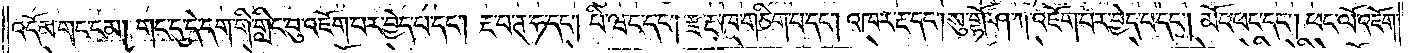འདོམ་གང་ངམ། གང་དུ་དེ་དག་གི་གླིང་བུ་འཇོག་པར་བྱེད་པ་དང༌། རྔ་པ་ཊ་ཧ་དང༌། པི་ཝང་དང༌། རྫ་རྔ་ཁ་གཅིག་པ་དང༌། འཁར་རྔ་དང༌། སུ་གྷོ་ཤ་ཀ་འཇོག་པར་བྱེད་པ་དང༌། མོང་ཕང་དང༌། ཕང་ལོ་འཇོག་
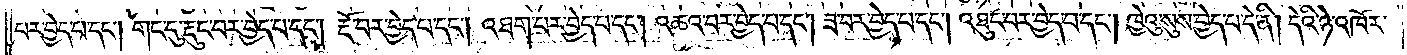པར་བྱེད་པ་དང༌། གང་དུ་རྡུང་བར་བྱེད་པ་དང༌། རྔོ་བར་བྱེད་པ་དང༌། འཐག་པར་བྱེད་པ་དང༌། འཆའ་བར་བྱེད་པ་དང༌། ཟ་བར་བྱེད་པ་དང༌། འཐུང་བར་བྱེད་པ་དང༌། ཁྱེའུ་སུས་བྱེད་པ་དེ་ནི། དེའི་ཉེ་འཁོར་
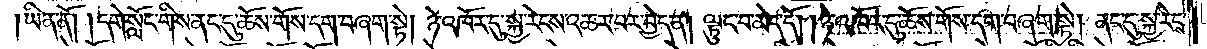ཡིན་ནོ། །དགེ་སློང་གིས་ནང་དུ་ཆོས་གོས་དག་བཞག་སྟེ། ཉེ་འཁོར་དུ་སྐྱ་རེངས་འཆར་བར་བྱེད་ན། ལྟུང་བ་མེད་དོ། །ཉེ་འཁོར་དུ་ཆོས་གོས་དག་བཞག་སྟེ། ནང་དུ་སྐྱ་རེངས་
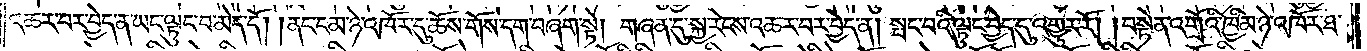འཆར་བར་བྱེད་ན་ཡང་ལྟུང་བ་མེད་དོ། །ནང་ངམ་ཉེ་འཁོར་དུ་ཆོས་གོས་དག་བཞག་སྟེ། གཞན་དུ་སྐྱ་རེངས་འཆར་བར་བྱེད་ན། སྤང་བའི་ལྟུང་བྱེད་དུ་འགྱུར་རོ། །བསྟེན་འགྲོའི་ཁྱིམ་ཉེ་འཁོར་ཐ་
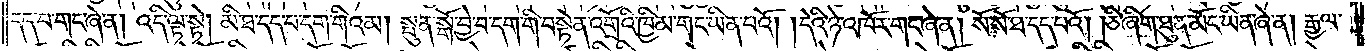དད་པ་གང་ཞེ་ན། འདི་ལྟ་སྟེ། མི་ཐ་དད་པ་དག་གིའམ། སྤུན་སྒོ་བྱེ་བ་དག་གི་བསྟེན་འགྲོའི་ཁྱིམ་གང་ཡིན་པའོ། །དེའི་ཉེ་འཁོར་གང་ཞེ་ན། སོ་སོ་ཐ་དད་པའོ། །ཅི་ཞིག་ཐུན་མོང་ཡིན་ཞེ་ན། རྒྱལ་
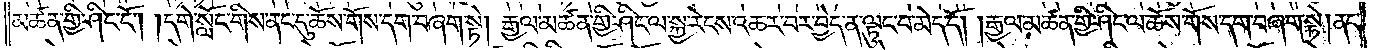མཚན་གྱི་ཤིང་ངོ༌། །དགེ་སློང་གིས་ནང་དུ་ཆོས་གོས་དག་བཞག་སྟེ། རྒྱལ་མཚན་གྱི་ཤིང་ལ་སྐྱ་རེངས་འཆར་བར་བྱེད་ན་ལྟུང་བ་མེད་དོ། །རྒྱལ་མཚན་གྱི་ཤིང་ལ་ཆོས་གོས་དག་བཞག་སྟེ། ནང་
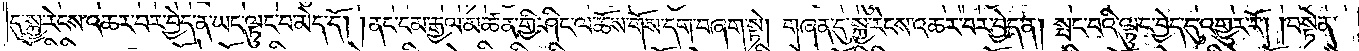དུ་སྐྱ་རེངས་འཆར་བར་བྱེད་ན་ཡང་ལྟུང་བ་མེད་དོ། །ནང་ངམ་རྒྱལ་མཚན་གྱི་ཤིང་ལ་ཆོས་གོས་དག་བཞག་སྟེ། གཞན་དུ་སྐྱ་རེངས་འཆར་བར་བྱེད་ན། སྤང་བའི་ལྟུང་བྱེད་དུ་འགྱུར་རོ། །བསྟེན་
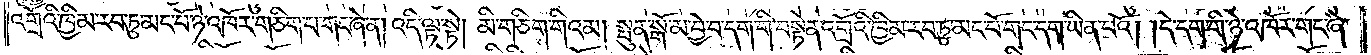འགྲོའི་ཁྱིམ་རབ་ཏུ་མང་པོ་ཉེ་འཁོར་གཅིག་པ་གང་ཞེ་ན། འདི་ལྟ་སྟེ། མི་གཅིག་གིའམ། སྤུན་སྒོ་མ་བྱེ་བ་དག་གི་བསྟེན་འགྲོའི་ཁྱིམ་རབ་ཏུ་མང་པོ་གང་དག་ཡིན་པའོ། །དེ་དག་གི་ཉེ་འཁོར་གང་ཞེ་
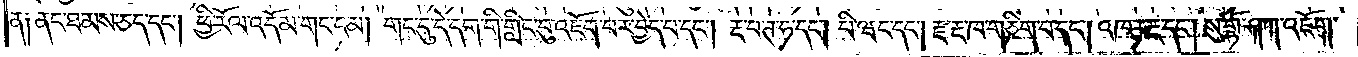ན། ནང་ཐམས་ཅད་དང༌། ཕྱི་རོལ་འདོམ་གང་ངམ། གང་དུ་དེ་དག་གི་གླིང་བུ་འཇོག་པར་བྱེད་པ་དང༌། རྔ་བ་ཊ་ཧ་དང༌། པི་ཝང་དང༌། རྫ་རྔ་ཁ་གཅིག་པ་དང༌། འཁར་རྔ་དང༌། སུ་གྷོ་ཤ་ཀ་འཇོག་
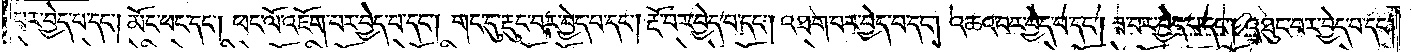པར་བྱེད་པ་དང༌། མོང་ཕང་དང༌། ཕང་ལོ་འཇོག་པར་བྱེད་པ་དང༌། གང་དུ་རྡུང་བར་བྱེད་པ་དང༌། རྔོ་བར་བྱེད་པ་དང༌། འཐག་པར་བྱེད་པ་དང༌། འཆའ་བར་བྱེད་པ་དང༌། ཟ་བར་བྱེད་པ་དང༌། འཐུང་བར་བྱེད་པ་དང༌།
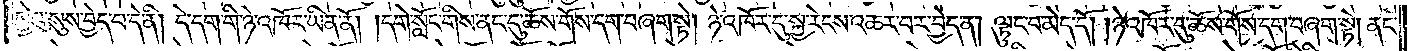ཁྱེའུ་སུས་བྱེད་པ་དེ་ནི། དེ་དག་གི་ཉེ་འཁོར་ཡིན་ནོ། །དགེ་སློང་གིས་ནང་དུ་ཆོས་གོས་དག་བཞག་སྟེ། ཉེ་འཁོར་དུ་སྐྱ་རེངས་འཆར་བར་བྱེད་ན། ལྟུང་བ་མེད་དོ། །ཉེ་འཁོར་དུ་ཆོས་གོས་དག་བཞག་སྟེ། ནང་
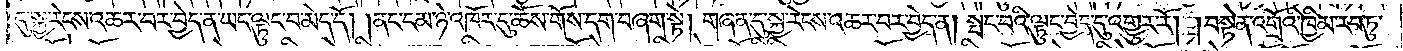དུ་སྐྱ་རེངས་འཆར་བར་བྱེད་ན་ཡང་ལྟུང་བ་མེད་དོ། །ནང་ངམ་ཉེ་འཁོར་དུ་ཆོས་གོས་དག་བཞག་སྟེ། གཞན་དུ་སྐྱ་རེངས་འཆར་བར་བྱེད་ན། སྤང་བའི་ལྟུང་བྱེད་དུ་འགྱུར་རོ། །བསྟེན་འགྲོའི་ཁྱིམ་རབ་ཏུ་
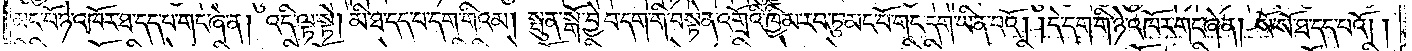མང་པོ་ཉེ་འཁོར་ཐ་དད་པ་གང་ཞེ་ན། འདི་ལྟ་སྟེ། མི་ཐ་དད་པ་དག་གིའམ། སྤུན་སྒོ་བྱེ་བ་དག་གི་བསྟེན་འགྲོའི་ཁྱིམ་རབ་ཏུ་མང་པོ་གང་དག་ཡིན་པའོ། །དེ་དག་གི་ཉེ་འཁོར་གང་ཞེ་ན། སོ་སོ་ཐ་དད་པའོ། །
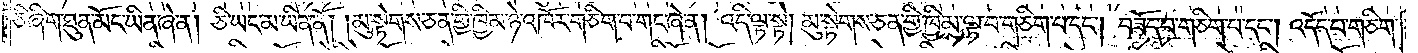ཅི་ཞིག་ཐུན་མོང་ཡིན་ཞེ་ན། ཅི་ཡང་མ་ཡིན་ནོ། །མུ་སྟེགས་ཅན་གྱི་ཁྱིམ་ཉེ་འཁོར་གཅིག་པ་གང་ཞེ་ན། འདི་ལྟ་སྟེ། མུ་སྟེགས་ཅན་གྱི་ཁྱིམ་ལྟ་བ་གཅིག་པ་དང༌། བཟོད་པ་གཅིག་པ་དང༌། འདོད་པ་གཅིག་
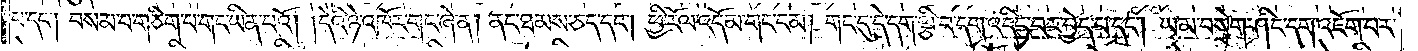པ་དང༌། བསམ་པ་གཅིག་པ་གང་ཡིན་པའོ། །དེའི་ཉེ་འཁོར་གང་ཞེ་ན། ནང་ཐམས་ཅད་དང༌། ཕྱི་རོལ་འདོམ་གང་ངམ། གང་དུ་དེ་དག་ལྕི་བདག་འདིང་བར་བྱེད་པ་དང༌། ཡམ་བསྲེག་ཤིང་དག་འཇོག་པར་
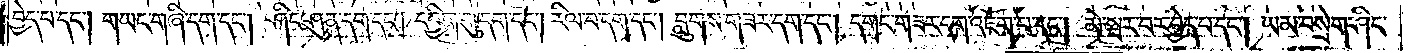བྱེད་པ་དང༌། གཡང་གཞི་དག་དང༌། ཤིང་ཤུན་དག་དང༌། དབྱིག་གུ་དག་དང༌། རིལ་བ་དག་དང༌། བླུགས་གཟར་དག་དང༌། དགང་གཟར་དག་འཇོག་པ་དང༌། མེ་སྦར་བར་བྱེད་པ་དང༌། ཡམ་བསྲེག་ཤིང་
